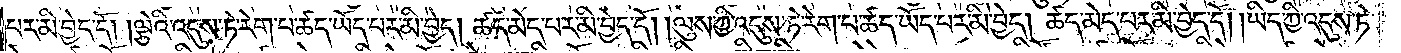པར་མི་བྱེད་དོ། །ལྕེའི་འདུས་ཏེ་རེག་པ་ཚད་ཡོད་པར་མི་བྱེད། ཚད་མེད་པར་མི་བྱེད་དོ། །ལུས་ཀྱི་འདུས་ཏེ་རེག་པ་ཚད་ཡོད་པར་མི་བྱེད། ཚད་མེད་པར་མི་བྱེད་དོ། །ཡིད་ཀྱི་འདུས་ཏེ་
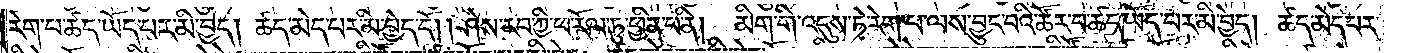རེག་པ་ཚད་ཡོད་པར་མི་བྱེད། ཚད་མེད་པར་མི་བྱེད་དོ། །ཤེས་རབ་ཀྱི་ཕ་རོལ་ཏུ་ཕྱིན་པ་ནི། མིག་གི་འདུས་ཏེ་རེག་པ་ལས་བྱུང་བའི་ཚོར་བ་ཚད་ཡོད་པར་མི་བྱེད། ཚད་མེད་པར་
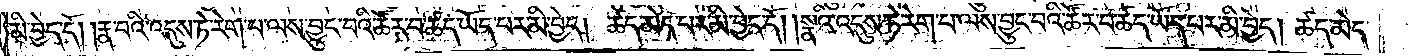མི་བྱེད་དོ། །རྣ་བའི་འདུས་ཏེ་རེག་པ་ལས་བྱུང་བའི་ཚོར་བ་ཚད་ཡོད་པར་མི་བྱེད། ཚད་མེད་པར་མི་བྱེད་དོ། །སྣའི་འདུས་ཏེ་རེག་པ་ལས་བྱུང་བའི་ཚོར་བ་ཚད་ཡོད་པར་མི་བྱེད། ཚད་མེད་
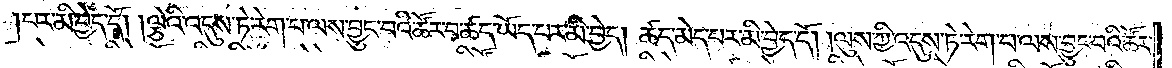པར་མི་བྱེད་དོ། །ལྕེའི་འདུས་ཏེ་རེག་པ་ལས་བྱུང་བའི་ཚོར་བ་ཚད་ཡོད་པར་མི་བྱེད། ཚད་མེད་པར་མི་བྱེད་དོ། །ལུས་ཀྱི་འདུས་ཏེ་རེག་པ་ལས་བྱུང་བའི་ཚོར་
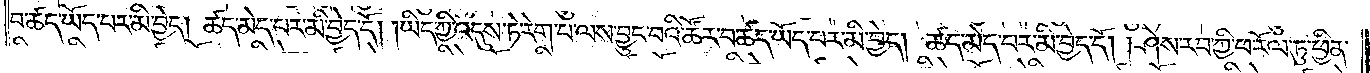བ་ཚད་ཡོད་པར་མི་བྱེད། ཚད་མེད་པར་མི་བྱེད་དོ། །ཡིད་ཀྱི་འདུས་ཏེ་རེག་པ་ལས་བྱུང་བའི་ཚོར་བ་ཚད་ཡོད་པར་མི་བྱེད། ཚད་མེད་པར་མི་བྱེད་དོ། །ཤེས་རབ་ཀྱི་ཕ་རོལ་ཏུ་ཕྱིན་
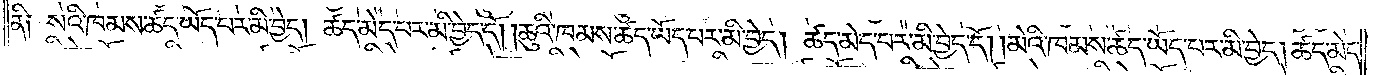ནི༑ སའི་ཁམས་ཚད་ཡོད་པར་མི་བྱེད། ཚད་མེད་པར་མི་བྱེད་དོ། །ཆུའི་ཁམས་ཚད་ཡོད་པར་མི་བྱེད། ཚད་མེད་པར་མི་བྱེད་དོ། །མེའི་ཁམས་ཚད་ཡོད་པར་མི་བྱེད། ཚད་མེད་
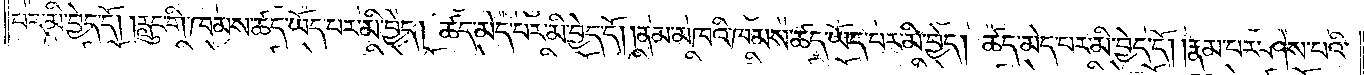པར་མི་བྱེད་དོ། །རླུང་གི་ཁམས་ཚད་ཡོད་པར་མི་བྱེད། ཚད་མེད་པར་མི་བྱེད་དོ། །ནམ་མཁའི་ཁམས་ཚད་ཡོད་པར་མི་བྱེད། ཚད་མེད་པར་མི་བྱེད་དོ། །རྣམ་པར་ཤེས་པའི་
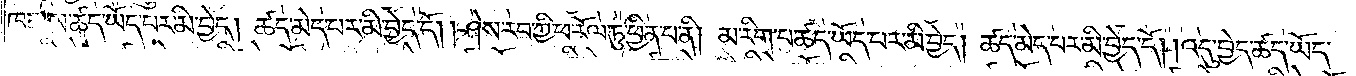ཁམས་ཚད་ཡོད་པར་མི་བྱེད། ཚད་མེད་པར་མི་བྱེད་དོ། །ཤེས་རབ་ཀྱི་ཕ་རོལ་ཏུ་ཕྱིན་པ་ནི། མ་རིག་པ་ཚད་ཡོད་པར་མི་བྱེད། ཚད་མེད་པར་མི་བྱེད་དོ། །འདུ་བྱེད་ཚད་ཡོད་
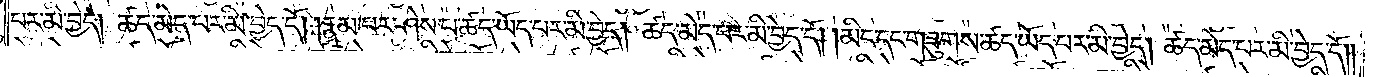པར་མི་བྱེད། ཚད་མེད་པར་མི་བྱེད་དོ། །རྣམ་པར་ཤེས་པ་ཚད་ཡོད་པར་མི་བྱེད། ཚད་མེད་པར་མི་བྱེད་དོ། །མིང་དང་གཟུགས་ཚད་ཡོད་པར་མི་བྱེད། ཚད་མེད་པར་མི་བྱེད་དོ། །
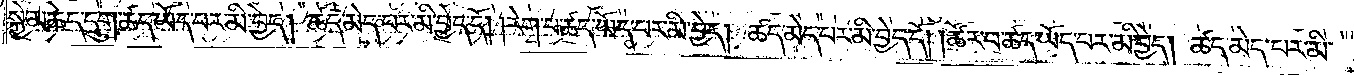སྐྱེ་མཆེད་དྲུག་ཚད་ཡོད་པར་མི་བྱེད། ཚད་མེད་པར་མི་བྱེད་དོ། །རེག་པ་ཚད་ཡོད་པར་མི་བྱེད། ཚད་མེད་པར་མི་བྱེད་དོ། །ཚོར་བ་ཚད་ཡོད་པར་མི་བྱེད། ཚད་མེད་པར་མི་
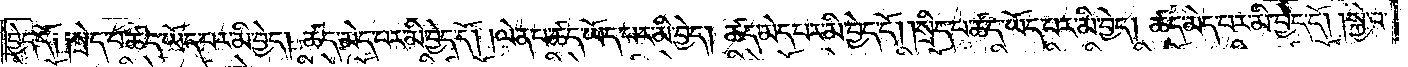བྱེད་དོ༑ ༑སྲེད་པ་ཚད་ཡོད་པར་མི་བྱེད། །ཚད་མེད་པར་མི་བྱེད་དོ། །ལེན་པ་ཚད་ཡོད་པར་མི་བྱེད། ཚད་མེད་པར་མི་བྱེད་དོ། །སྲིད་པ་ཚད་ཡོད་པར་མི་བྱེད། ཚད་མེད་པར་མི་བྱེད་དོ། །སྐྱེ་བ་
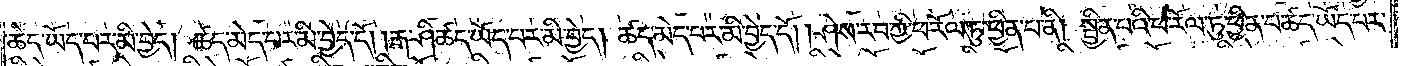ཚད་ཡོད་པར་མི་བྱེད། ཚད་མེད་པར་མི་བྱེད་དོ། །རྒ་ཤི་ཚད་ཡོད་པར་མི་བྱེད། ཚད་མེད་པར་མི་བྱེད་དོ། །ཤེས་རབ་ཀྱི་ཕ་རོལ་ཏུ་ཕྱིན་པ་ནི། སྦྱིན་པའི་ཕ་རོལ་ཏུ་ཕྱིན་པ་ཚད་ཡོད་པར་
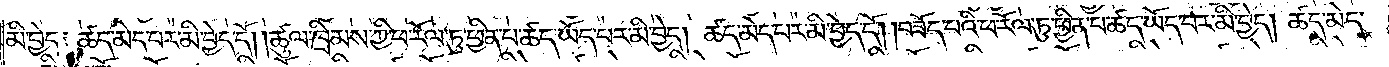མི་བྱེད༑ ཚད་མེད་པར་མི་བྱེད་དོ། །ཚུལ་ཁྲིམས་ཀྱི་ཕ་རོལ་ཏུ་ཕྱིན་པ་ཚད་ཡོད་པར་མི་བྱེད། ཚད་མེད་པར་མི་བྱེད་དོ། །བཟོད་པའི་ཕ་རོལ་ཏུ་ཕྱིན་པ་ཚད་ཡོད་པར་མི་བྱེད། ཚད་མེད་
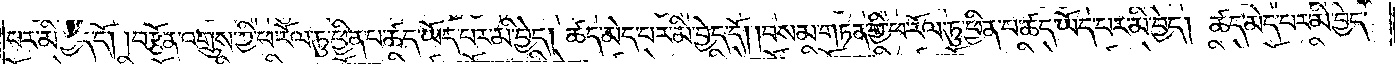པར་མི་བྱེད་དོ། །བརྩོན་འགྲུས་ཀྱི་ཕ་རོལ་ཏུ་ཕྱིན་པ་ཚད་ཡོད་པར་མི་བྱེད། ཚད་མེད་པར་མི་བྱེད་དོ། །བསམ་གཏན་གྱི་ཕ་རོལ་ཏུ་ཕྱིན་པ་ཚད་ཡོད་པར་མི་བྱེད། ཚད་མེད་པར་མི་བྱེད་
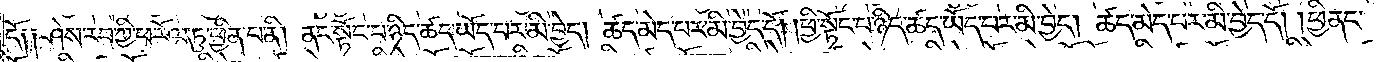དོ༑ ༑ཤེས་རབ་ཀྱི་ཕ་རོལ་ཏུ་ཕྱིན་པ་ནི། ནང་སྟོང་པ་ཉིད་ཚད་ཡོད་པར་མི་བྱེད། ཚད་མེད་པར་མི་བྱེད་དོ། །ཕྱི་སྟོང་པ་ཉིད་ཚད་ཡོད་པར་མི་བྱེད། ཚད་མེད་པར་མི་བྱེད་དོ། །ཕྱི་ནང་
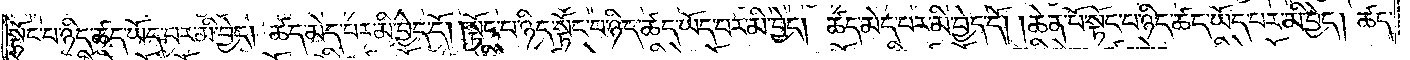སྟོང་པ་ཉིད་ཚད་ཡོད་པར་མི་བྱེད། ཚད་མེད་པར་མི་བྱེད་དོ། །སྟོང་པ་ཉིད་སྟོང་པ་ཉིད་ཚད་ཡོད་པར་མི་བྱེད། ཚད་མེད་པར་མི་བྱེད་དོ། །ཆེན་པོ་སྟོང་པ་ཉིད་ཚད་ཡོད་པར་མི་བྱེད། ཚད་
